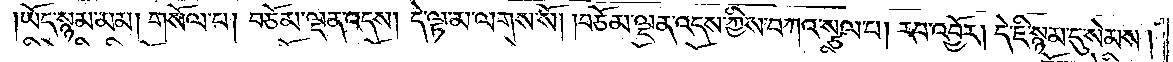ཡོད་སྙམ་མམ། གསོལ་པ། བཅོམ་ལྡན་འདས། དེ་ལྟ་མ་ལགས་སོ། །བཅོམ་ལྡན་འདས་ཀྱིས་བཀའ་སྩལ་པ། རབ་འབྱོར། དེ་ཇི་སྙམ་དུ་སེམས།
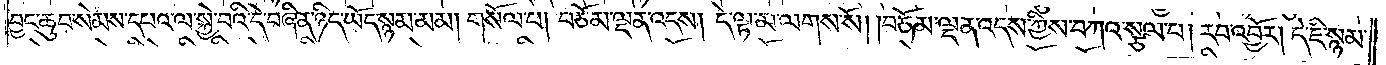བྱང་ཆུབ་སེམས་དཔའ་ལ་སྐྱེ་བའི་དེ་བཞིན་ཉིད་ཡོད་སྙམ་མམ། གསོལ་པ། བཅོམ་ལྡན་འདས། དེ་ལྟ་མ་ལགས་སོ། །བཅོམ་ལྡན་འདས་ཀྱིས་བཀའ་སྩལ་པ། རབ་འབྱོར། དེ་ཇི་སྙམ་
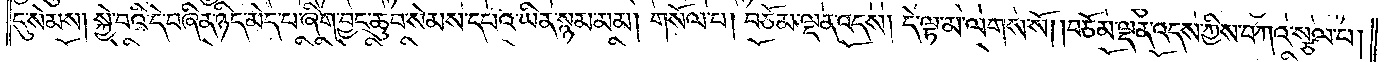དུ་སེམས། སྐྱེ་བའི་དེ་བཞིན་ཉིད་མེད་པ་ཞིག་བྱང་ཆུབ་སེམས་དཔའ་ཡིན་སྙམ་མམ། གསོལ་པ། བཅོམ་ལྡན་འདས། དེ་ལྟ་མ་ལགས་སོ། །བཅོམ་ལྡན་འདས་ཀྱིས་བཀའ་སྩལ་པ།
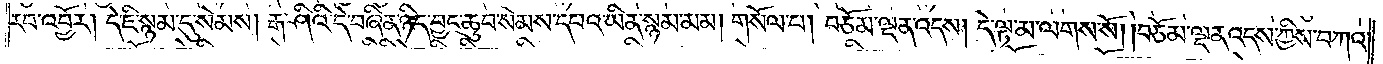རབ་འབྱོར། དེ་ཇི་སྙམ་དུ་སེམས། རྒ་ཤིའི་དེ་བཞིན་ཉིད་བྱང་ཆུབ་སེམས་དཔའ་ཡིན་སྙམ་མམ། གསོལ་པ། བཅོམ་ལྡན་འདས། དེ་ལྟ་མ་ལགས་སོ། །བཅོམ་ལྡན་འདས་ཀྱིས་བཀའ་
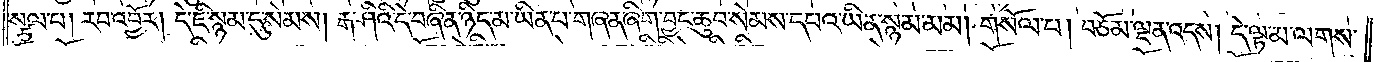སྩལ་པ། རབ་འབྱོར། དེ་ཇི་སྙམ་དུ་སེམས། རྒ་ཤིའི་དེ་བཞིན་ཉིད་མ་ཡིན་པ་གཞན་ཞིག་བྱང་ཆུབ་སེམས་དཔའ་ཡིན་སྙམ་མམ། གསོལ་པ། བཅོམ་ལྡན་འདས། དེ་ལྟ་མ་ལགས་
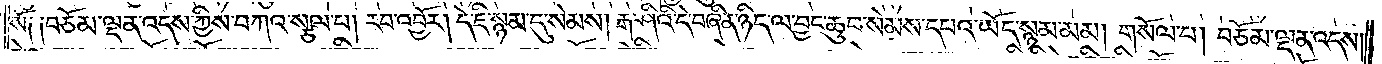སོ༑ ༑བཅོམ་ལྡན་འདས་ཀྱིས་བཀའ་སྩལ་པ། རབ་འབྱོར། དེ་ཇི་སྙམ་དུ་སེམས། རྒ་ཤིའི་དེ་བཞིན་ཉིད་ལ་བྱང་ཆུབ་སེམས་དཔའ་ཡོད་སྙམ་མམ། གསོལ་པ། བཅོམ་ལྡན་འདས་
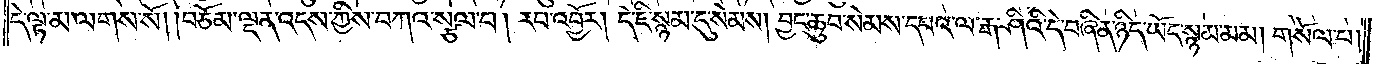དེ་ལྟ་མ་ལགས་སོ། །བཅོམ་ལྡན་འདས་ཀྱིས་བཀའ་སྩལ་པ། རབ་འབྱོར། དེ་ཇི་སྙམ་དུ་སེམས། བྱང་ཆུབ་སེམས་དཔའ་ལ་རྒ་ཤིའི་དེ་བཞིན་ཉིད་ཡོད་སྙམ་མམ། གསོལ་པ།
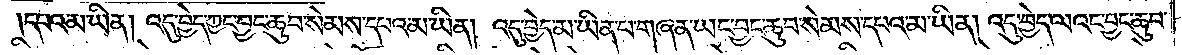དཔའ་མ་ཡིན། འདུ་བྱེད་ཀྱང་བྱང་ཆུབ་སེམས་དཔའ་མ་ཡིན། འདུ་བྱེད་མ་ཡིན་པ་གཞན་ཡང་བྱང་ཆུབ་སེམས་དཔའ་མ་ཡིན། འདུ་བྱེད་ལའང་བྱང་ཆུབ་
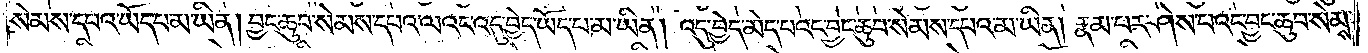སེམས་དཔའ་ཡོད་པ་མ་ཡིན། བྱང་ཆུབ་སེམས་དཔའ་ལའང་འདུ་བྱེད་ཡོད་པ་མ་ཡིན། འདུ་བྱེད་མེད་པའང་བྱང་ཆུབ་སེམས་དཔའ་མ་ཡིན། རྣམ་པར་ཤེས་པའང་བྱང་ཆུབ་སེམས་
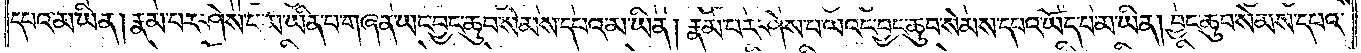དཔའ་མ་ཡིན། རྣམ་པར་ཤེས་པ་མ་ཡིན་པ་གཞན་ཡང་བྱང་ཆུབ་སེམས་དཔའ་མ་ཡིན། རྣམ་པར་ཤེས་པ་ལའང་བྱང་ཆུབ་སེམས་དཔའ་ཡོད་པ་མ་ཡིན། བྱང་ཆུབ་སེམས་དཔའ་
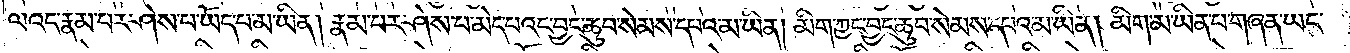ལའང་རྣམ་པར་ཤེས་པ་ཡོད་པ་མ་ཡིན། རྣམ་པར་ཤེས་པ་མེད་པའང་བྱང་ཆུབ་སེམས་དཔའ་མ་ཡིན། མིག་ཀྱང་བྱང་ཆུབ་སེམས་དཔའ་མ་ཡིན། མིག་མ་ཡིན་པ་གཞན་ཡང་
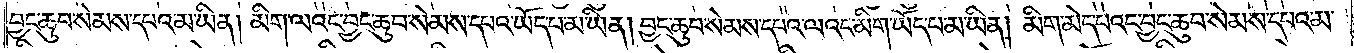བྱང་ཆུབ་སེམས་དཔའ་མ་ཡིན། མིག་ལའང་བྱང་ཆུབ་སེམས་དཔའ་ཡོད་པ་མ་ཡིན། བྱང་ཆུབ་སེམས་དཔའ་ལའང་མིག་ཡོད་པ་མ་ཡིན། མིག་མེད་པའང་བྱང་ཆུབ་སེམས་དཔའ་མ་
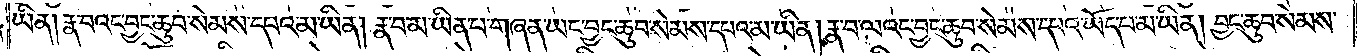ཡིན། རྣ་བའང་བྱང་ཆུབ་སེམས་དཔའ་མ་ཡིན། རྣ་བ་མ་ཡིན་པ་གཞན་ཡང་བྱང་ཆུབ་སེམས་དཔའ་མ་ཡིན། རྣ་བ་ལའང་བྱང་ཆུབ་སེམས་དཔའ་ཡོད་པ་མ་ཡིན། བྱང་ཆུབ་སེམས་
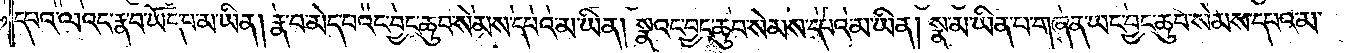དཔའ་ལའང་རྣ་བ་ཡོད་པ་མ་ཡིན། རྣ་བ་མེད་པའང་བྱང་ཆུབ་སེམས་དཔའ་མ་ཡིན། སྣའང་བྱང་ཆུབ་སེམས་དཔའ་མ་ཡིན། སྣ་མ་ཡིན་པ་གཞན་ཡང་བྱང་ཆུབ་སེམས་དཔའ་མ་
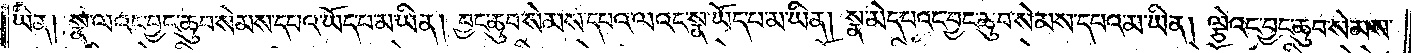ཡིན། སྣ་ལའང་བྱང་ཆུབ་སེམས་དཔའ་ཡོད་པ་མ་ཡིན། བྱང་ཆུབ་སེམས་དཔའ་ལའང་སྣ་ཡོད་པ་མ་ཡིན། སྣ་མེད་པའང་བྱང་ཆུབ་སེམས་དཔའ་མ་ཡིན། ལྕེའང་བྱང་ཆུབ་སེམས་
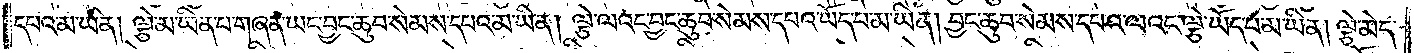དཔའ་མ་ཡིན། ལྕེ་མ་ཡིན་པ་གཞན་ཡང་བྱང་ཆུབ་སེམས་དཔའ་མ་ཡིན། ལྕེ་ལའང་བྱང་ཆུབ་སེམས་དཔའ་ཡོད་པ་མ་ཡིན། བྱང་ཆུབ་སེམས་དཔའ་ལའང་ལྕེ་ཡོད་པ་མ་ཡིན། ལྕེ་མེད་
